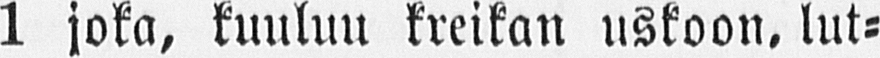1 joka, kuuluu kreikan uskoon, lut-
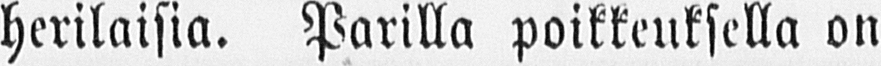herilaisia. Parilla poikkeuksella on
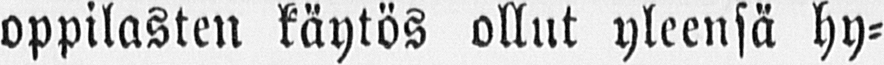oppilasten käytös ollut yleensä hy-
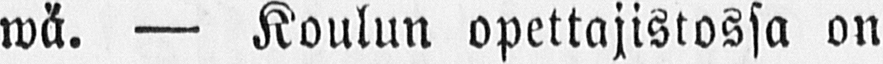wä. — Koulun opettajistossa on
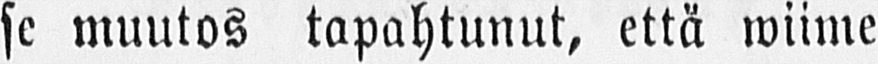se muutos tapahtunut, että wiime
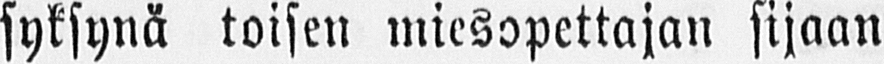syksynä toisen miesopettajan sijaan
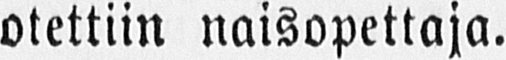otettiin naisopettaja.
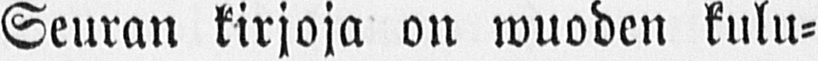Seuran kirjoja on wuoden kulu-
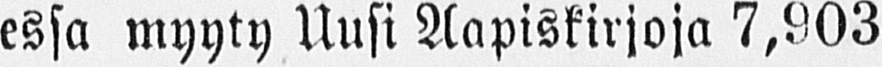essa myyty Uusi Aapiskirjoja 7,903
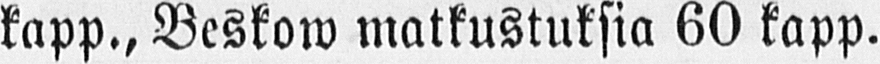kapp., Beskow matkustuksia 60 kapp.
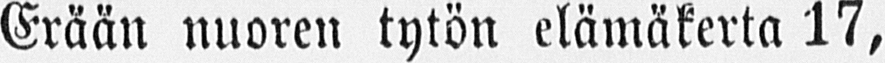Erään nuoren tytön elämäkerta 17,
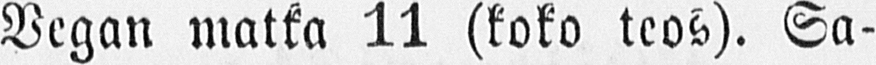Vegan matka 11 (koko teos). Sa-
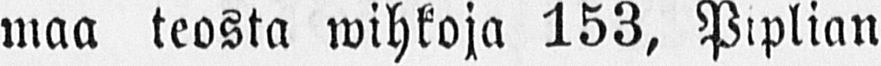maa teosta wihkoja 153, Piplian
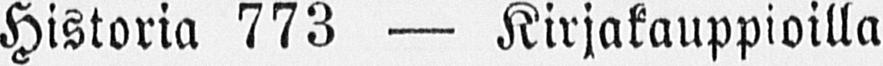Historia 773 — Kirjakauppioilla
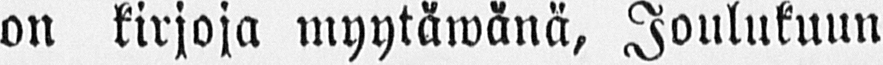on kirjoja myytäwänä, Joulukuun
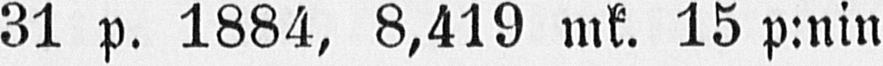31 p. 1884, 8,419 mk. 15 p:nin
